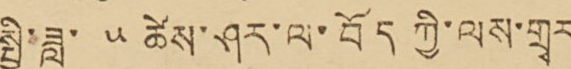སྤྱི་ཟླ་ ༥ ཚེས་ཤར་ལ་བོད ཀྱི་ལས་གྲྭར་
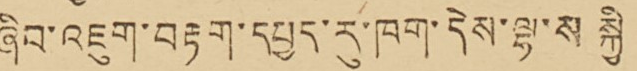ཞིབ་འཇུག་བརྟག་དཔྱད་རུ་ཁག་དེས་ལྷ་ས སྐྱིད་
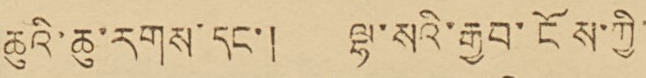ཆུའི་ཆུ་རགས་དང་། ལྷ་སའི་རྒྱབ་ངོས་ཀྱི་་
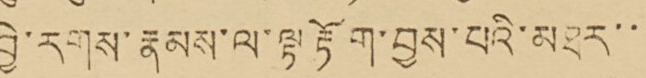བྱེ་རགས་རྣམས་ལ་ལྟ་རྟོག་བྱས་པའི་མཐར་་་
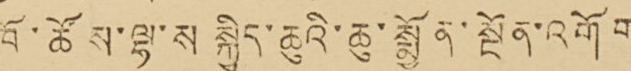ཁོ་ཚོས་ལྷ་ས སྐྱིད་ཆུའི་ཆུ་སྨྱོན་སྔོན་འགོག་
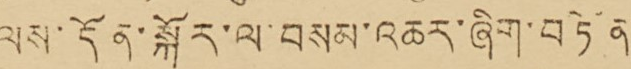ལས་དོན་སྐོར་ལ་བསམ་འཆར་ཞིག་བཏན་་
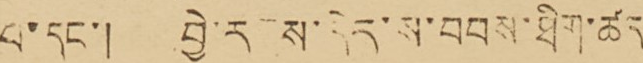པ་དང་། བྱེ་རགས་དེར་ས་བབས་ཐིག་ཚད་
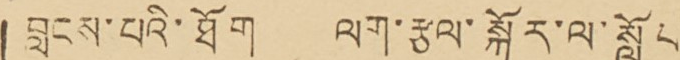བླངས་པའི་ཐོག ལག་རྩལ་སྐོར་ལ་སློབ་
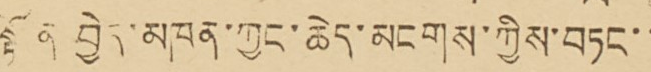སྟོན་བྱེད་མཁན་ཀྱང་ཆེད་མངགས་ཀྱིས་བཏང་་
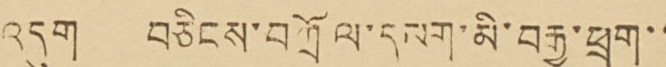འདུག བཅིངས་བཀྲོལ་དམག་མི་བརྒྱ་ཕྲག་་
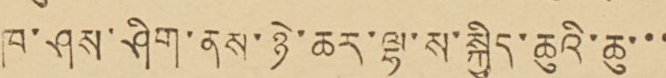ཁ་ཤས་ཤིག་ནས་ཉེ་ཆར་ལྷ་ས་སྐྱིད་ཆུའི་ཆུ་་་
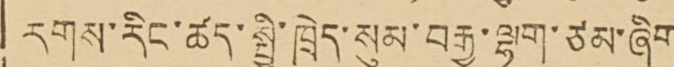རགས་རིང་ཚད་སྤྱི་ཁྲེད་སུམ་བརྒྱ་ལྷག་ཙམ་ཞིག་
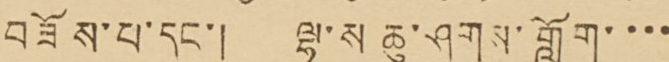བཟོས་པ་དང་། ལྷ་ས་ཆུ་ཤུགས་གློག་་་་
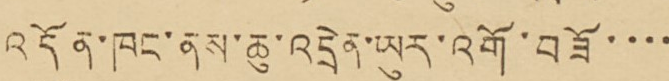འདོན་ཁང་ནས་ཆུ་འདྲེན་ཡུར་འགོ་བཟོ་་་་
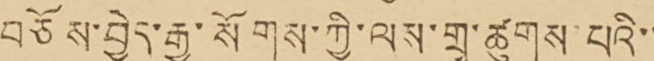བཅོས་བྱེད་རྒྱུ་སོགས་ཀྱི་ལས་གྲྭ་ཚུགས་པའི་་
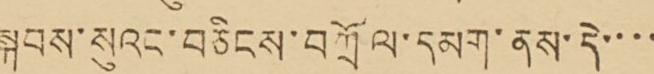སྐབས་སུའང་བཅིངས་བཀྲོལ་དམག་ནས་དེ་་་་
